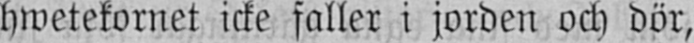hwetekornet icke faller i jorden och dör,
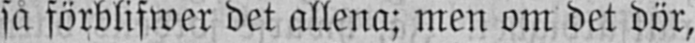så förblifwer det allena; men om det dör,
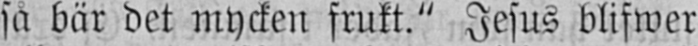så bär det mycken frukt." Jesus blifwer
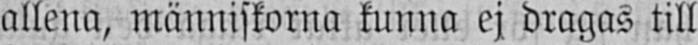allena, människorna kunna ej dragas till
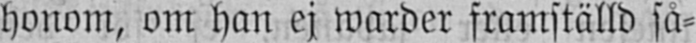honom, om han ej warder framställd så-
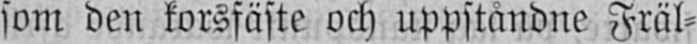som den korsfäste och uppståndne Fräl-
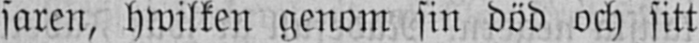saren, hwilken genom sin död och sitt
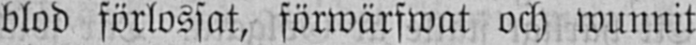blod förlossat, förwärfwat och wunnit
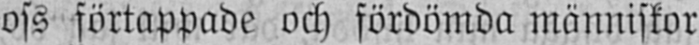oss förtappade och fördömda människor
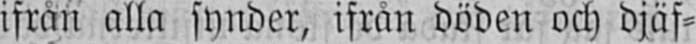ifrån alla synder, ifrån döden och djäf-
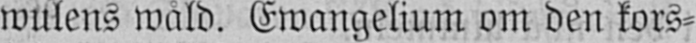wulens wåld. Ewangelium om den kors-
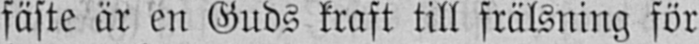fäste är en Guds kraft till frälsning för
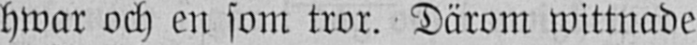hwar och en som tror. Därom wittnade
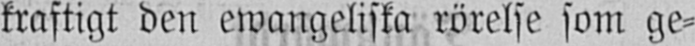kraftigt den ewangeliska rörelse som ge-
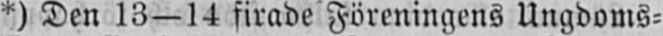*) Den 13—14 firade Föreningens Ungdoms-
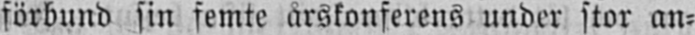förbund sin femte årskonferens under stor an-
